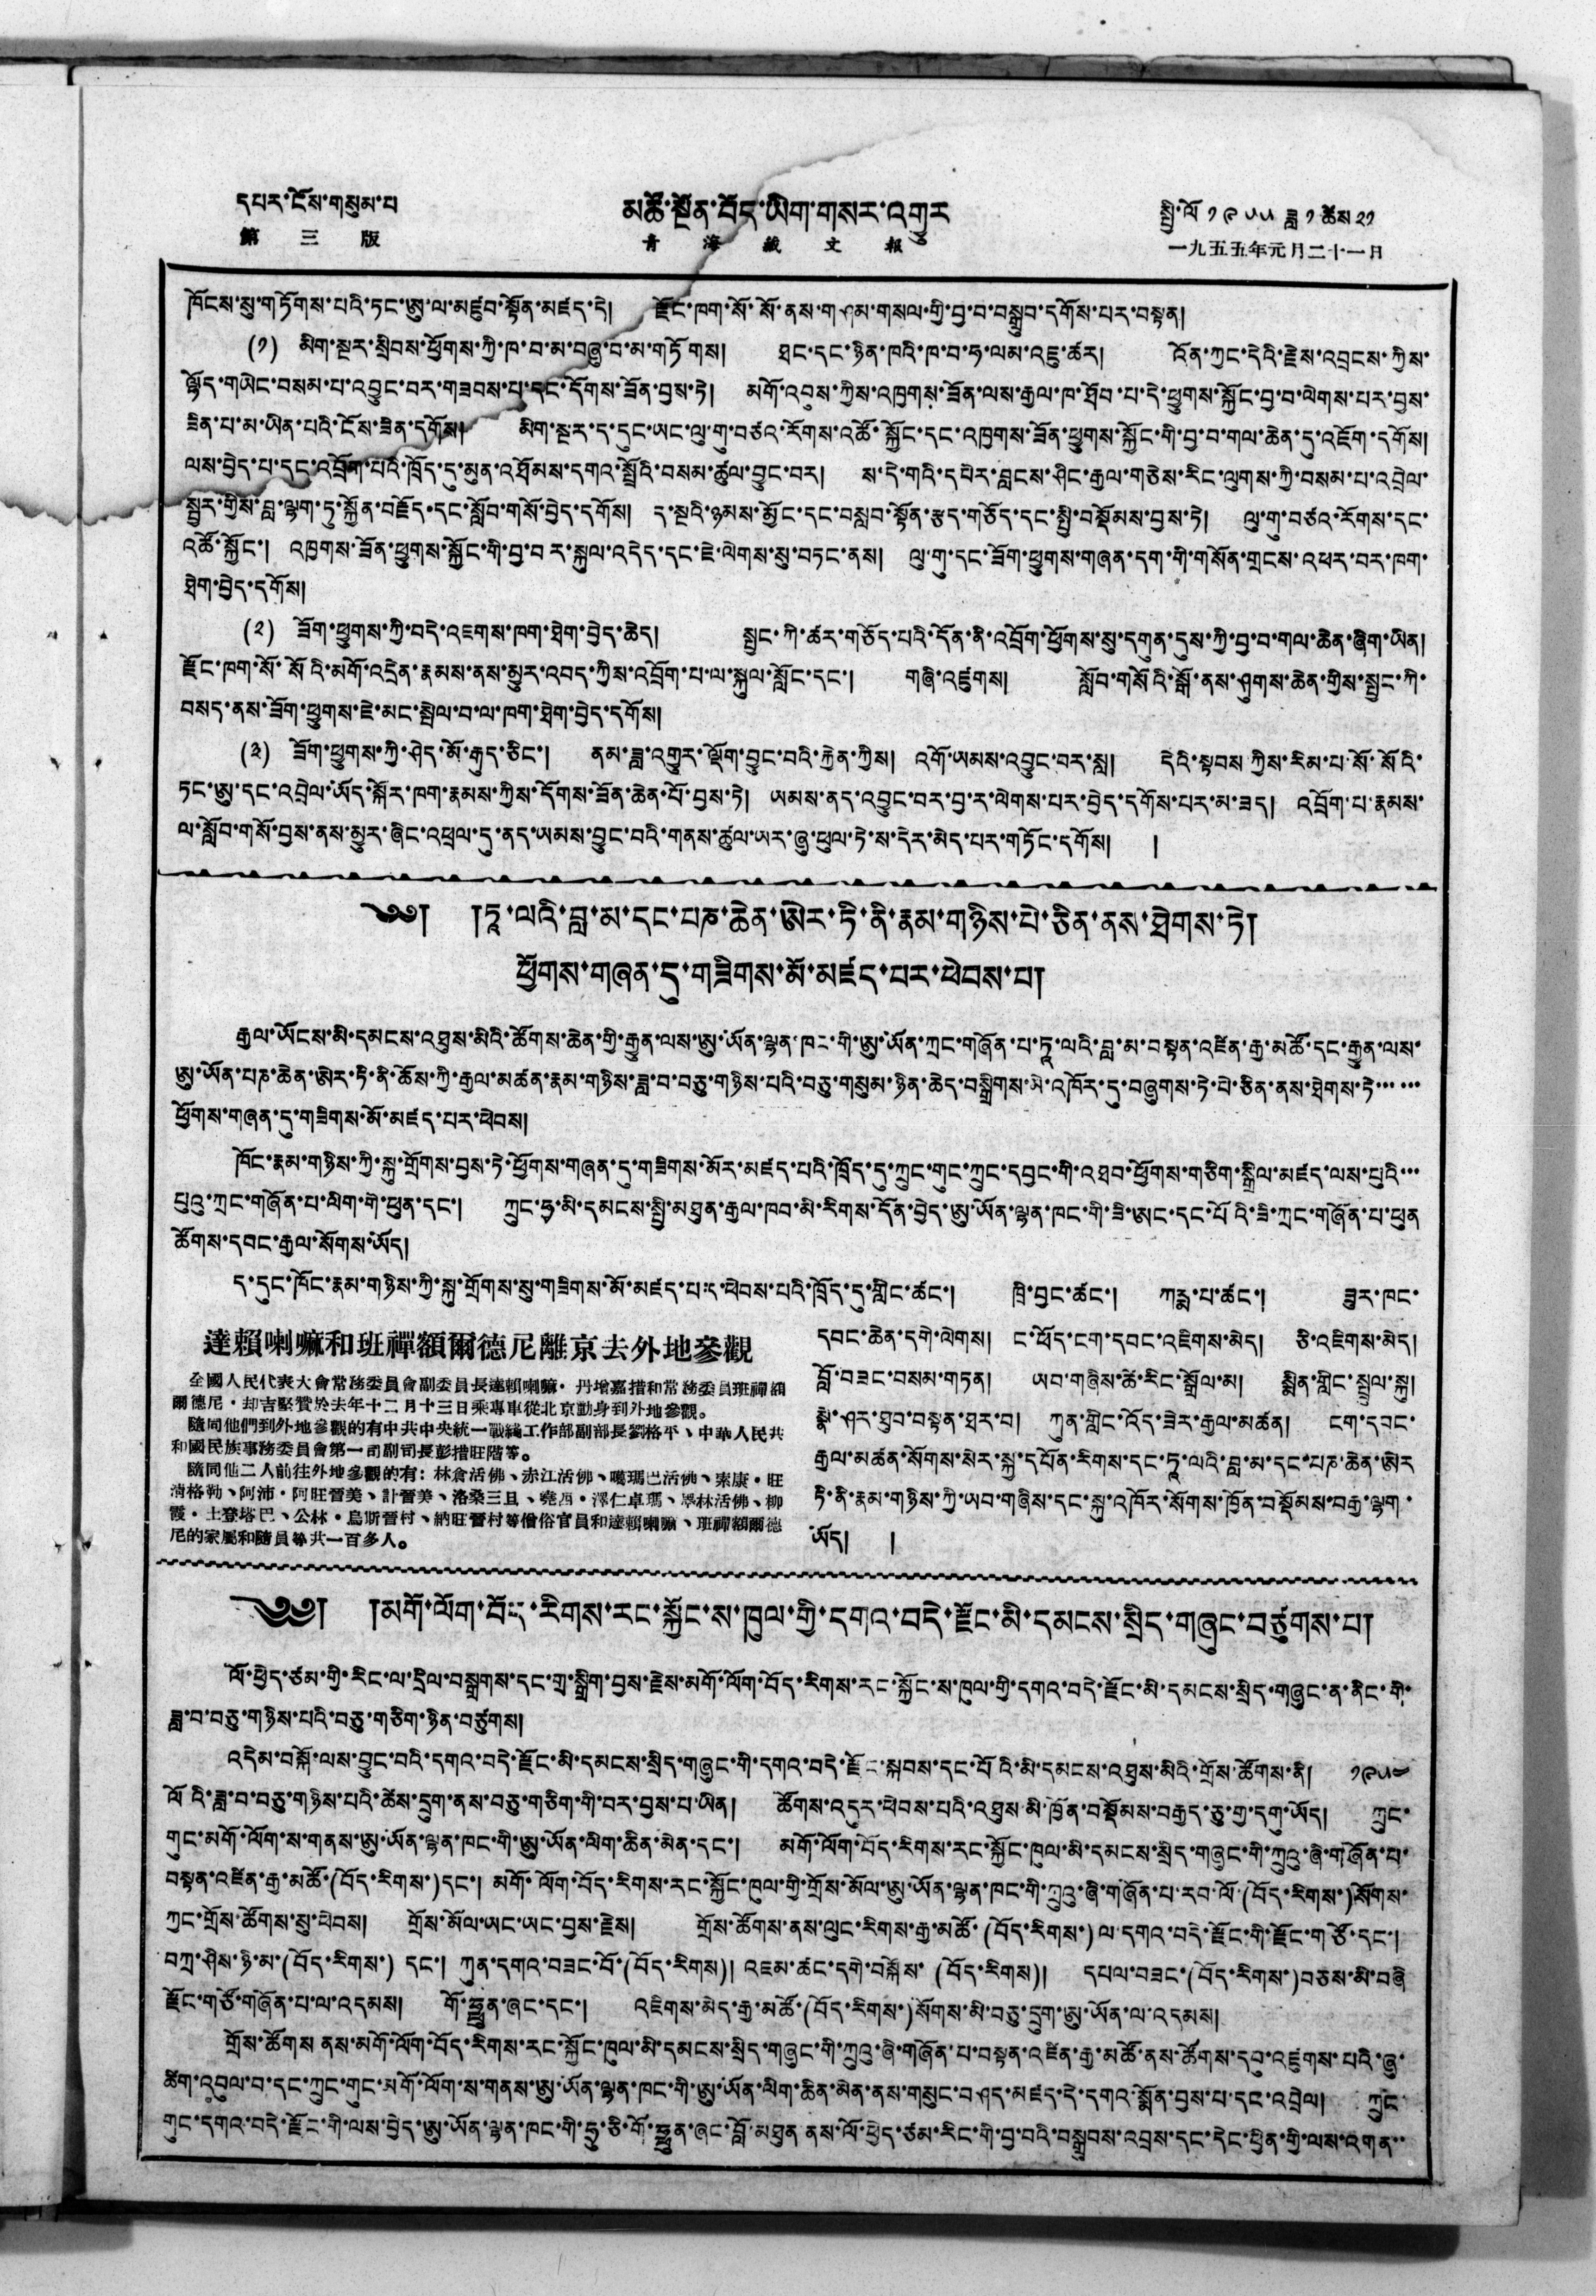དཔར་ངོས་གསུམ་པ།   མཚོ་སྔོན་བོད་ཡིག་གསར་འགྱུར   སྤྱི་ལོ ༡༩༥༥ ཟླ ༡ ཚེས ༢༡
第 三 版 青 海 藏 文 報 一九五五年元月二十一日
ཁོངས་སུ་གཏོགས་པའི་ཏང་ཨུ་ལ་མཛུབ་སྟོན་མཛད་དེ། རྫོང་ཁག་སོ་སོ་ནས་གཤམ་གསལ་གྱི་བྱ་བ་བསྒྲུབ་དགོས་པར་བསྟན།
(༡) མིག་སྔར་སྲིབས་ཕྱོགས་ཀྱི་ཁ་བ་མ་བཞུ་བ་མ་གཏོགས། ཐང་དང་ཉིན་ཁའི་ཁ་བ་ཧ་ལམ་འཇུ་ཚར། འོན་ཀྱང་དེའི་རྗེས་འབྲངས་ཀྱིས་
ལྷོད་གཡེང་བསམ་པ་འབྱུང་བར་གཟབས་པ་དང་དོགས་ཟོན་བྱས་ཏེ། མགོ་འབུས་ཀྱིས་འཁྱགས་ཟོན་ལས་རྒྱལ་ཁ་ཐོབ་པ་དེ་ཕྱུགས་སྐྱོང་བྱ་བ་ལེགས་པར་བྱས་
ཟིན་པ་མ་ཡིན་པའི་ངོས་ཟིན་དགོས། མིག་སྔར་ད་དུང་ཡང་ལུ་གུ་བཙའ་རོགས་འཚོ་སྐྱོང་དང་འཁྱགས་ཟོན་ཕྱུགས་སྐྱོང་གི་བྱ་བ་གལ་ཆེན་དུ་འཇོག་དགོས།
ལས་བྱེད་པ་དང་འབྲོག་པའི་ཁྲོད་དུ་མུན་འཐོམས་དགའ་སྤྲོའི་བསམ་ཚུལ་བྱུང་བར། ས་དེ་གའི་དཔེར་བླངས་ཤིང་རྒྱལ་གཅེས་རིང་ལུགས་ཀྱི་བསམ་པ་འབྲེལ་
སྦྱར་གྱིས་བླ་ལྷག་ཏུ་སྐྱོན་བརྗོད་དང་སློབ་གསོ་བྱེད་དགོས། ད་སྔའི་ཉམས་མྱོང་དང་བསླབ་སྟོན་རྩད་གཅོད་དང་སྤྱི་བསྡོམས་བྱས་ཏེ། ལུ་གུ་བཙའ་རོགས་དང་
འཚོ་སྐྱོང་། འཁྱགས་ཟོན་ཕྱུགས་སྐྱོང་གི་བྱ་བར་སྐུལ་འདེད་དང་ཇེ་ལེགས་སུ་བཏང་ནས། ལུ་གུ་དང་ཟོག་ཕྱུགས་གཞན་དག་གི་གསོན་གྲངས་འཕར་བར་ཁག་
ཐེག་བྱེད་དགོས།
(༢) ཟོག་ཕྱུགས་ཀྱི་བདེ་འཇགས་ཁག་ཐེག་བྱེད་ཆེད། སྤྱང་ཀི་ཚར་གཅོད་པའི་དོན་ནི་འབྲོག་ཕྱོགས་སུ་དགུན་དུས་ཀྱི་བྱ་བ་གལ་ཆེན་ཞིག་ཡིན།
ཁག་སོ་སོའི་མགོ་འདྲེན་རྣམས་ནས་མྱུར་འབད་ཀྱིས་འབྲོག་པ་ལ་སྐུལ་སློང་དང་། གཞི་འཛུགས། སློབ་གསོའི་སྒོ་ནས་ཤུགས་ཆེན་གྱིས་སྤྱང་ཀི་
བསད་ནས་ཟོག་ཕྱུགས་ཇེ་མང་སྤེལ་བ་ལ་ཁག་ཐེག་བྱེད་དགོས།
(༣) ཟོག་ཕྱུགས་ཀྱི་ཤེད་མོ་རྒུད་ཅིང་། ནམ་ཟླ་འགྱུར་ལྡོག་བྱུང་བའི་རྐྱེན་ཀྱིས། འགོ་ཡམས་འབྱུང་བར་སླ། དེའི་སྟབས ཀྱིས་རིམ་པ་སོ་སོའི་
ཏང་ཨུ་དང་འབྲེལ་ཡོད་སྐོར་ཁག་རྣམས་ཀྱིས་དོགས་ཟོན་ཆེན་པོ་བྱས་ཏེ། ཡམས་ནད་འབྱུང་བར་བྱ་ར་ལེགས་པར་བྱེད་དགོས་པར་མ་ཟད། འབྲོག་པ་རྣམས་
ལ་སློབ་གསོ་བྱས་ནས་མྱུར་ཞིང་འཕྲལ་དུ་ནད་ཡམས་བྱུང་བའི་གནས་ཚུལ་ཡར་ཞུ་ཕུལ་ཏེ་ས་དེར་མེད་པར་གཏོང་དགོས། །
༄༅། །ཏཱ་ལའི་བླ་མ་དང་པཎ་ཆེན་ཨེར་ཏི་ནི་རྣམ་གཉིས་པེ་ཅིན་ནས་ཐེགས་ཏེ།
ཕྱོགས་གཞན་དུ་གཟིགས་མོ་མཛད་པར་ཕེབས་པ།
རྒྱལ་ཡོངས་མི་དམངས་འཐུས་མིའི་ཚོགས་ཆེན་གྱི་རྒྱུན་ལས་ཨུ་ཡོན་ལྷན་ཁང་གི་ཨུ་ཡོན་ཀྲང་གཞོན་པ་ཏཱ་ལའི་བླ་མ་བསྟན་འཛིན་རྒྱ་མཚོ་དང་རྒྱུན་ལས་
ཨུ་ཡོན་པཎ་ཆེན་ཨེར་ཏི་ནི་ཆོས་ཀྱི་རྒྱལ་མཚན་རྣམ་གཉིས་ཟླ་བ་བཅུ་གཉིས་པའི་བཅུ་གསུམ་ཉིན་ཆེད་བསྒྲིགས་མེ་འཁོར་དུ་བཞུགས་ཏེ་པེ་ཅིན་ནས་ཐེགས་ཏེ་་་་་་
ཕྱོགས་གཞན་དུ་གཟིགས་མོ་མཛད་པར་ཕེབས།
ཁོང་རྣམ་གཉིས་ཀྱི་སྐུ་གྲོགས་བྱས་ཏེ་ཕྱོགས་གཞན་དུ་གཟིགས་མོར་མཛད་པའི་ཁྲོད་དུ་ཀྲུང་གུང་ཀྲུང་དབྱང་གི་འཐབ་ཕྱོགས་གཅིག་སྒྲིལ་མཛད་ལས་པུའི་་་
པུའུ་ཀྲང་གཞོན་པ་ལིག་གེ་ཕུན་དང་། ཀྲུང་ཧྭ་མི་དམངས་སྤྱི་མཐུན་རྒྱལ་ཁབ་མི་རིགས་དོན་བྱེད་ཨུ་ཡོན་ལྷན་ཁང་གི་ཟི་ཨང་དང་པོའི་ཟི་ཀྲང་གཞོན་པ་ཕུན
ཚོགས་དབང་རྒྱལ་སོགས་ཡོད།
དུང་ཁོང་རྣམ་གཉིས་ཀྱི་སྐུ་གྲོགས་སུ་གཟིགས་མོ་མཛད་པ་དུ་ཕེབས་པའི་ཁྲོད་དུ་གླིང་ཚང་། ཁྲི་བྱང་ཚང་། ཀརྨ་པ་ཚང་། ཟུར་ཁང་
དབང་ཆེན་དགེ་ལེགས། ང་ཕོད་ངག་དབང་འཇིགས་མེད། ཅི་འཇིགས་མེད།
བློ་བཟང་བསམ་གཏན། ཡབ་གཞིས་ཚེ་རིང་སྒྲོལ་མ། སྨིན་གླིང་སྤྲུལ་སྐུ།
སྣེ་ཤར་ཐུབ་བསྟན་ཐར་བ། ཀུན་གླིང་འོད་ཟེར་རྒྱལ་མཚན། ངག་དབང་
རྒྱལ་མཚན་སོགས་སེར་སྐྱ་དཔོན་རིགས་དང་ཏཱ་ལའི་བླ་མ་དང་པཎ་ཆེན་ཨེར
ཏི་ནི་རྣམ་གཉིས་ཀྱི་ཡབ་གཞིས་དང་སྐུ་འཁོར་སོགས་ཁྱོན་བསྡོམས་བརྒྱ་ལྷག་
ཡོད། །
達賴喇嘛和班禪額爾德尼離京去外地參觀
全國人民代表大會常務委員會副委員長達賴喇嘛・丹增嘉措和常務委員班禪額
爾德尼・却吉堅贊於去年十二月十三日乘專車從北京動身到外地參觀。
隨同他們到外地參觀的有中共中央統一戰綫工作部副部長劉格平、中華人民共
和國民族事務委員會第一司副司長彭措旺階等。
隨同他二人前往外地參觀的有：林倉活佛、赤江活佛、噶瑪巴活佛、索康・旺
清格勒、阿沛・阿旺晉美、計晉美、洛桑三旦、堯西・澤仁卓瑪、旻林活佛、柳
霞・土登塔巴、公林・烏斯晉村、納旺晉村等僧俗官員和達賴喇嘛、班禪額爾德
尼的家屬和隨員等共一百多人。
༄༅། །མགོ་ལོག་བོད་རིགས་རང་སྐྱོང་ས་ཁུལ་གྱི་དགའ་བདེ་རྫོང་མི་དམངས་སྲིད་གཞུང་བཙུགས་པ།
ལོ་ཕྱེད་ཙམ་གྱི་རིང་ལ་དྲིལ་བསྒྲགས་དང་གྲ་སྒྲིག་བྱས་རྗེས་མགོ་ལོག་བོད་རིགས་རང་སྐྱོང་ས་ཁུལ་གྱི་དགའ་བདེ་རྫོང་མི་དམངས་སྲིད་གཞུང་ན་ནིང་གི་
ཟླ་བ་བཅུ་གཉིས་པའི་བཅུ་གཅིག་ཉིན་བཙུགས།
འདེམ་བསྐོ་ལས་བྱུང་བའི་དགའ་བདེ་རྫོང་མི་དམངས་སྲིད་གཞུང་གི་དགའ་བདེ་རྫོང་སྐབས་དང་པོའི་མི་དམངས་འཐུས་མིའི་གྲོས་ཚོགས་ནི། ༡༩༥༤
ལོའི་ཟླ་བ་བཅུ་གཉིས་པའི་ཚེས་དྲུག་ནས་བཅུ་གཅིག་གི་བར་བྱས་པ་ཡིན། ཚོགས་འདུར་ཕེབས་པའི་འཐུས་མི་ཁྱོན་བསྡོམས་བརྒྱད་ཅུ་གྱ་དགུ་ཡོད། ཀྲུང་
གུང་མགོ་ལོག་ས་གནས་ཨུ་ཡོན་ལྷན་ཁང་གི་ཨུ་ཡོན་ལིག་ཆིན་མེན་དང་། མགོ་ལོག་བོད་རིགས་རང་སྐྱོང་ཁུལ་མི་དམངས་སྲིད་གཞུང་གི་ཀྲུའུ་ཞི་གཞོན་པ་
སྟན་འཛིན་རྒྱ་མཚོ་(བོད་རིགས་)དང་། མགོ་ལོག་བོད་རིགས་རང་སྐྱོང་ཁུལ་གྱི་གྲོས་མོལ་ཨུ་ཡོན་ལྷན་ཁང་གི་ཀྲུའུ་ཞི་གཞོན་པ་རབ་ལོ་(བོད་རིགས་)སོགས་་
ཀྱང་གྲོས་ཚོགས་སུ་ཕེབས། གྲོས་མོལ་ཡང་ཡང་བྱས་རྗེས། གྲོས་ཚོགས་ནས་ལུང་རིགས་རྒྱ་མཚོ་(བོད་རིགས་)ལ་དགའ་བདེ་རྫོང་གི་རྫོང་གཙོ་དང་།
བཀྲ་ཤིས་ཉི་མ་(བོད་རིགས་)དང་། ཀུན་དགའ་བཟང་བོ་(བོད་རིགས)།  འཇམ་ཚང་དགེ་བསྐོས་(བོད་རིགས)། དཔལ་བཟང་(བོད་རིགས་)བཅས་མི་བཞི
རྫོང་གཙོ་གཞོན་པ་ལ་འདམས། གོ་ཧྥུན་ཞང་དང་། འཇིགས་མེད་རྒྱ་མཚོ་(བོད་རིགས་)སོགས་མི་བཅུ་དྲུག་ཨུ་ཡོན་ལ་འདམས།
གྲོས་ཚོགས ནས་མགོ་ལོག་བོད་རིགས་རང་སྐྱོང་ཁུལ་མི་དམངས་སྲིད་གཞུང་གི་ཀྲུའུ་ཞི་གཞོན་པ་བསྟན་འཛིན་རྒྱ་མཚོ་ནས་ཚོགས་དབ་འཛུགས་པའི་ཞུ་
ཚིག་འབུལ་བ་དང་ཀྲུང་གུང་མགོ་ལོག་ས་གནས་ཨུ་ཡོན་ལྷན་ཁང་གི་ཨུ་ཡོན་ལིག་ཆིན་མེན་ནས་གསུང་བཤད་མཛད་དེ་དགའ་སྨོན་བྱས་པ་དང་འབྲེལ། ཀྲུང་
གུང་དགའ་བདེ་རྫོང་གི་ལས་བྱེད་ཨུ་ཡོན་ལྷན་ཁང་གི་ཧྲུ་ཅི་གོ་ཧྥུན་ཞང་བློ་མཐུན་ནས་ལོ་ཕྱེད་ཙམ་རིང་གི་བྱ་བའི་བསྒྲུབས་འབྲས་དང་དེང་ཕྱིན་གྱི་ལས་འགན་་
